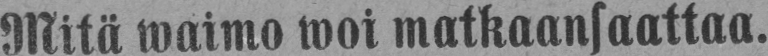Mitä waimo woi matkaansaattaa.
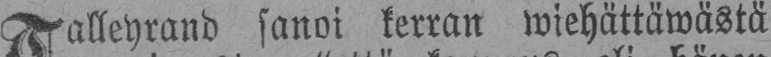Talleyrand sanoi kerran wiehättäwästä
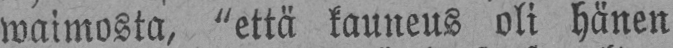waimosta, "että kauneus oli hänen
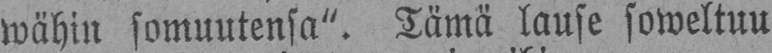wähin somuutensa". Tämä lause soweltuu
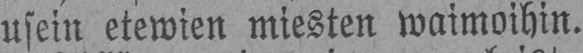usein etewien miesten waimoihin.
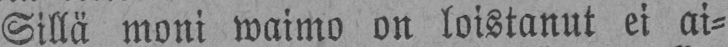Sillä moni waimo on loistanut ei ai-
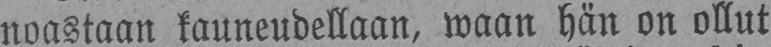noastaan kauneudellaan, waan hän on ollut
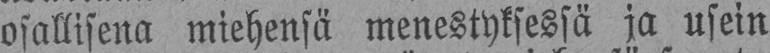osallisena miehensä menestyksessä ja usein
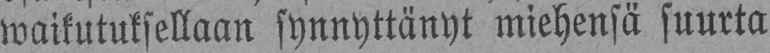waikutuksellaan synnyttänyt miehensä suurta
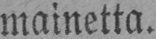mainetta.
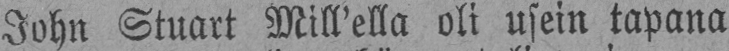John Stuart Mill'ella oli usein tapana
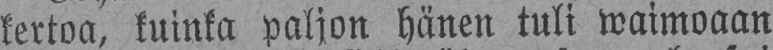kertoa, kuinka paljon hänen tuli waimoaan
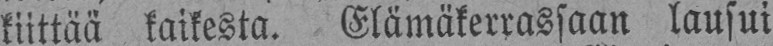kiittää kaikesta. Elämäkerrassaan lausui
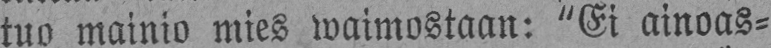tuo mainio mies waimostaan: "Ei ainoas-
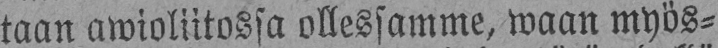taan awioliitossa ollessamme, waan myös-
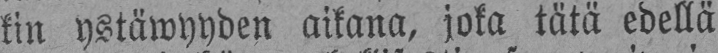kin ystäwyyden aikana, joka tätä edellä
